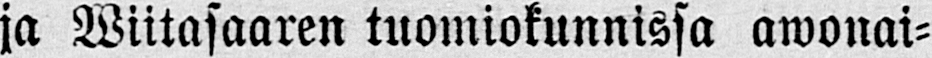ja Wiitasaaren tuomiokunnissa awonai-
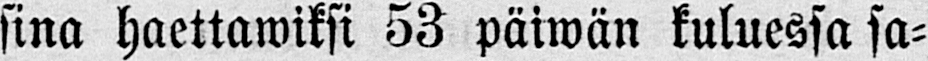sina haettawiksi 53 päiwän kuluessa sa-
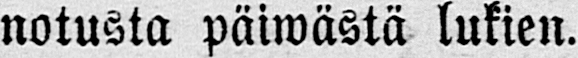notusta päiwästä lukien.
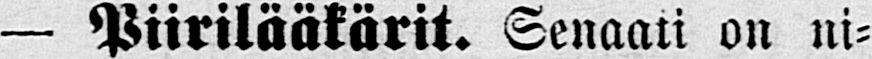— Piirilääkärit. Senaati on ni-
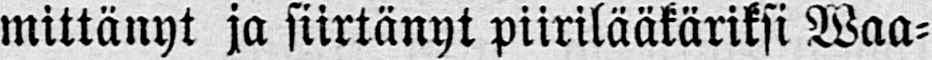mittänyt ja siirtänyt piirilääkäriksi Waa-
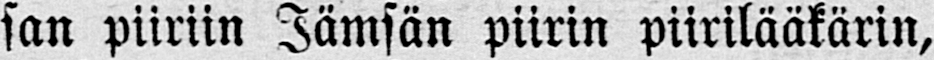san piiriin Jämsän piirin piirilääkärin,
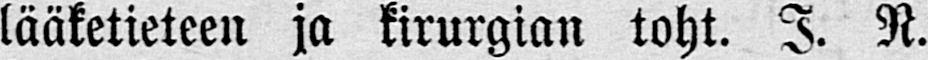lääketieteen ja kirurgian toht. I. N.
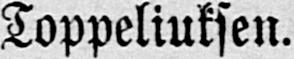Toppeliuksen.
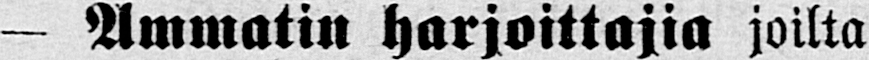— Ammatin harjoittajia joilta
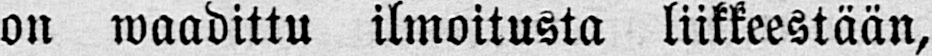on waadittu ilmoitusta liikkeestään,
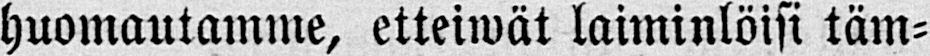huomautamme, etteiwät laiminlöisi täm-
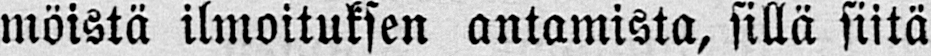möistä ilmoituksen antamista, sillä siitä
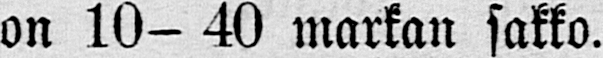on 10- 40 markan sakko.
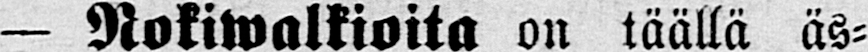— Nokiwalkioita on täällä äs-
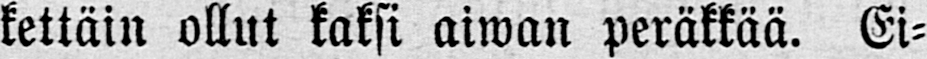kettäin ollut kaksi aiwan peräkkää. Ei-
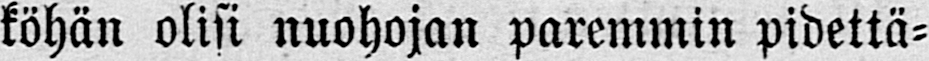köhän olisi nuohojan paremmin pidettä-
